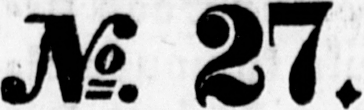No. 27.
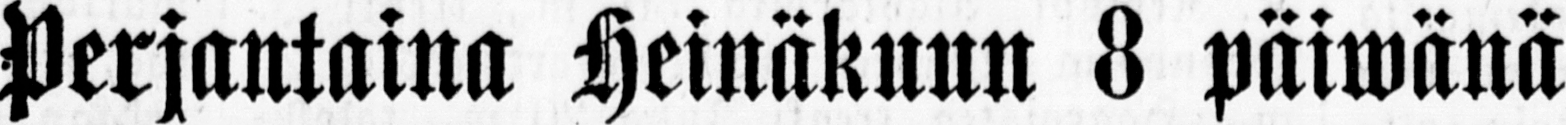Perjantaina Heinäkuun 8 päiwänä
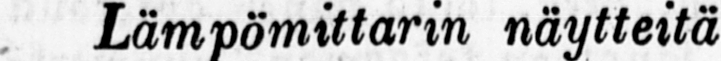Lämpömittarin näytteitä Turussa.
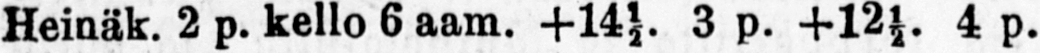Heinäk. 2 p. kello 6 aam. +14½. 3 p. +12½. 4 p.
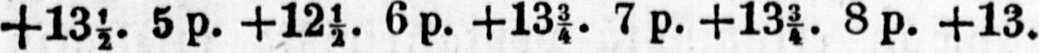+13½. 5 p. +12½. 6 p. +13¾. 7 p. +13 ¾ . 8 p. +13.
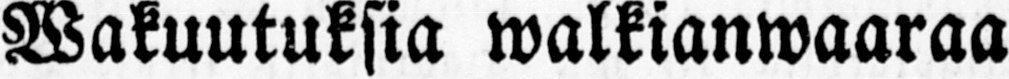Wakuutuksia walkianwaaraa
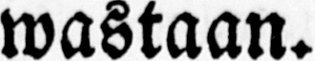wastaan.
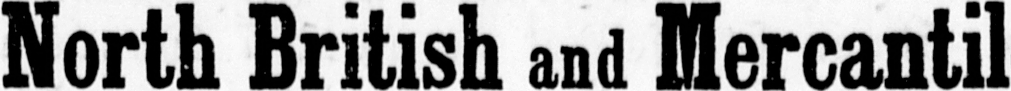North British and Mercantile
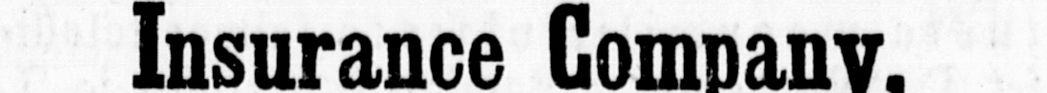Insurance Company,
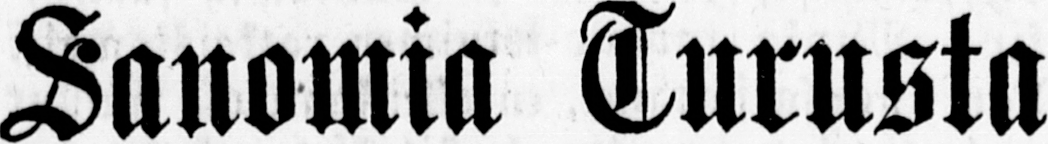Sanomia Turusta
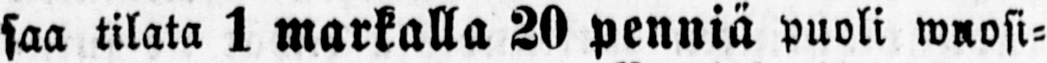saa tilata 1 markalla 20 penniä puoli wuosi-
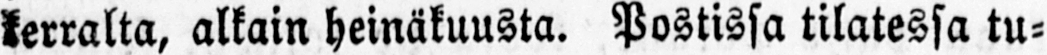kerralta, alkain heinäkuusta. Postissa tilatessa tu-
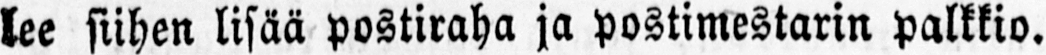lee siihen lisää postiraha ja postimestarin palkkio.
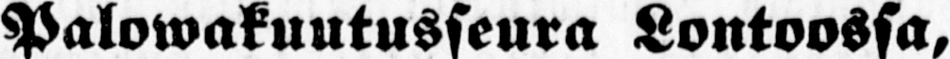Palowakuutusseura Lontoossa,
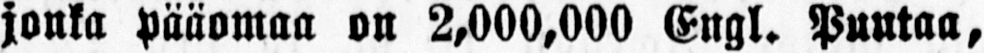jonka pääomaa on 2,000,000 Engl. Puntaa,
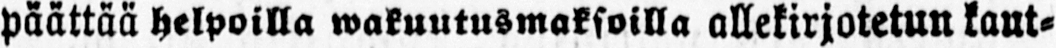päättää helpoilla wakuutusmaksoilla allekirjotetun kant-
